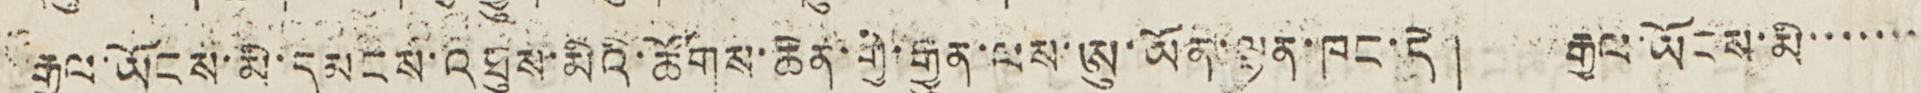རྒྱལ་ཡོངས་མི་དམངས་འཐུས་མིའི་ཚོགས་ཆེན་གྱི་རྒྱུན་ལས་ཨུ་ཡོན་ལྷན་ཁང་དེ། རྒྱལ་ཡོངས་མི་་་་་་་
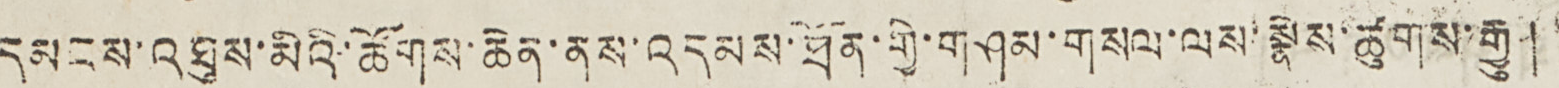དམངས་འཐུས་མིའི་ཚོགས་ཆེན་ནས་འདམས་ཐོན་གྱི་གཤམ་གསལ་ལས་སྣེས་ཚུགས་རྒྱུ།
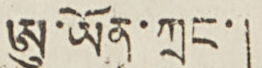ཨུ་ཡོན་ཀྲང་།
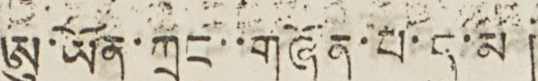ཨུ་ཡོན་ཀྲང་གཞོན་པ་དུ་མ།
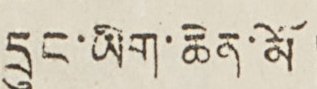དྲུང་ཡིག་ཆེན་མོ།
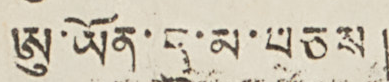ཨུ་ཡོན་དུ་མ་བཅས།
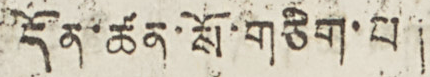དོན་ཚན་སོ་གཅིག་པ།
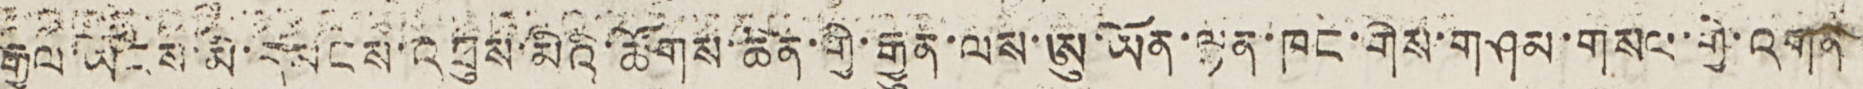རྒྱལ་ཡོངས་མི་དམངས་འཐུས་མིའི་ཚོགས་ཆེན་གྱི་རྒྱུན་ལས་ཨུ་ཡོན་ལྷན་ཁང་གིས་གཤམ་གསལ་གྱི་འགན་་
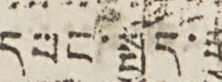དབང་སྤྱོད་རྒྱུ།
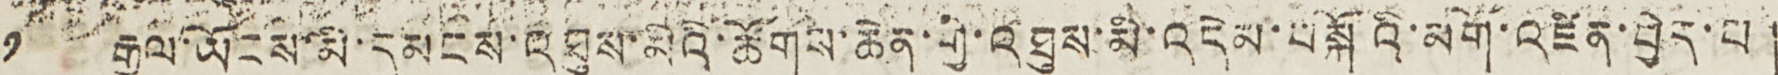༡ རྒྱལ་ཡོངས་མི་དམངས་འཐུས་མིའི་ཚོགས་ཆེན་གྱི་འཐུས་མི་འདེམ་བསྐོའི་མགོ་འཛིན་བྱེད་པ།
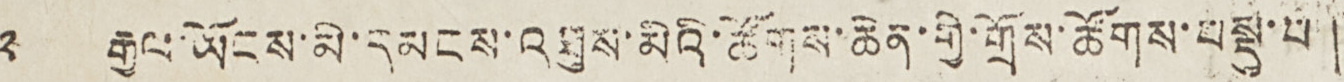༢ རྒྱལ་ཡོངས་མི་དམངས་འཐུས་མིའི་ཚོགས་ཆེན་གྱི་གྲོས་ཚོགས་བསྡུ་པ།
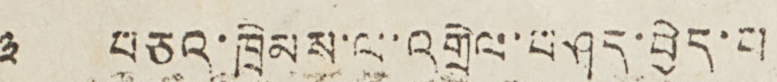༣ བཅའ་ཁྲིམས་ལ་འགྲེལ་བཤད་བྱེད་པ།
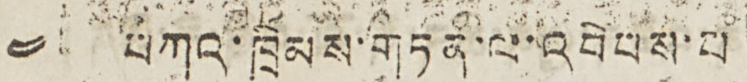༤ བཀའ་ཁྲིམས་གཏན་ལ་འབེབས་པ།
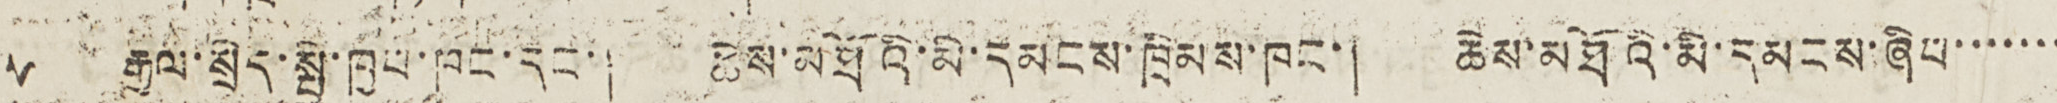༥ རྒྱལ་སྲིད་སྤྱི་ཁྱབ་ཁང་དང་། ཆེས་མཐོའི་མི་དམངས་ཁྲིམས་ཁང་། ཆོས་མཐོའི་མི་དམངས་ཞིབ་་་་་་་
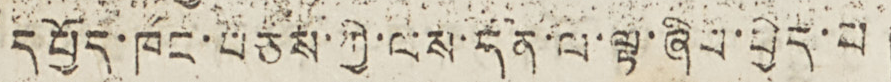དཔྱོད་ཁང་བཅས་ཀྱི་ལས་དོན་ལ་ལྟ་ཞིབ་བྱེད་པ།
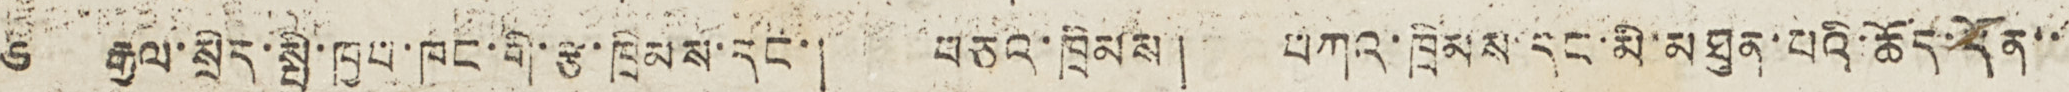༥ རྒྱལ་སྲིད་སྤྱི་ཁྱབ་ཁང་གི་རྩ་ཁྲིམས་དང་། བཅའ་ཁྲིམས། བཀའ་ཁྲིམས་དང་མི་མཐུན་པའི་ཆོད་དོན་་
